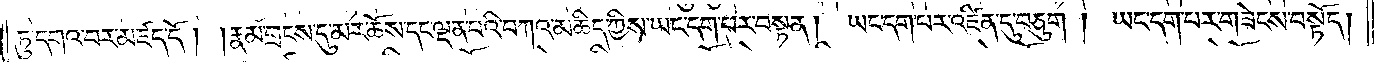ཏུ་དགའ་བར་མཛད་དོ། །རྣམ་གྲངས་དུ་མར་ཆོས་དང་ལྡན་པའི་བཀའ་མཆིད་ཀྱིས་ཡང་དག་པར་བསྟན། ཡང་དག་པར་འཛིན་དུ་བཅུག །ཡང་དག་པར་གཟེངས་བསྟོད།
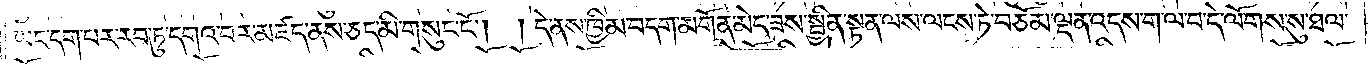ཡང་དག་པར་རབ་ཏུ་དགའ་བར་མཛད་ནས་ཅད་མི་གསུང་ངོ༌། །དེ་ནས་ཁྱིམ་བདག་མགོན་མེད་ཟས་སྦྱིན་སྟན་ལས་ལངས་ཏེ་བཅོམ་ལྡན་འདས་ག་ལ་བ་དེ་ལོགས་སུ་ཐལ་
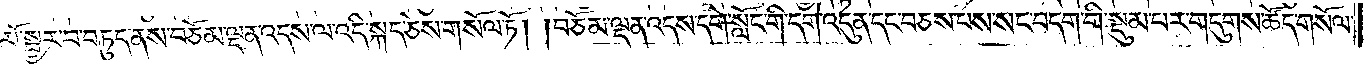མོ་སྦྱར་བ་བཏུད་ནས་བཅོམ་ལྡན་འདས་ལ་འདི་སྐད་ཅེས་གསོལ་ཏོ། །བཅོམ་ལྡན་འདས་དགེ་སློང་གི་དགེ་འདུན་དང་བཅས་པས་སང་བདག་གི་སྡུམ་པར་གདུགས་ཚོད་གསོལ་
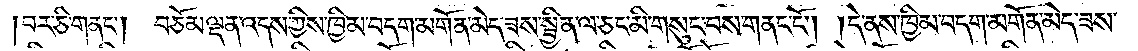བར་ཅི་གནང༌། བཅོམ་ལྡན་འདས་ཀྱིས་ཁྱིམ་བདག་མགོན་མེད་ཟས་སྦྱིན་ལ་ཅང་མི་གསུང་བས་གནང་ངོ༌། །དེ་ནས་ཁྱིམ་བདག་མགོན་མེད་ཟས་
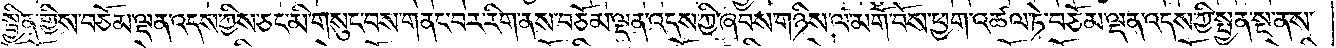སྦྱིན་གྱི་བཅོམ་ལྡན་འདས་ཀྱིས་ཅང་མི་གསུང་བས་གནང་བར་རིག་ནས་བཅོམ་ལྡན་འདས་ཀྱི་ཞབས་གཉིས་ལ་མགོ་བོས་ཕྱག་འཚལ་ཏེ་བཅོམ་ལྡན་འདས་ཀྱི་སྤྱན་སྔ་ནས་
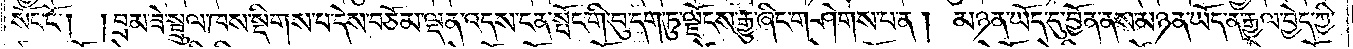སོང་ངོ༌། །བྲམ་ཟེ་སྦྲུལ་ཁས་སྡིགས་པ་དེས་བཅོམ་ལྡན་འདས་ངན་སྤོང་གི་བུ་དག་ཏུ་ལྗོངས་རྒྱུ་ཞིང་གཤེགས་པ་ན། མཉན་ཡོད་དུ་བྱོན་ནས་མཉན་ཡོད་ན་རྒྱལ་བྱེད་ཀྱི་
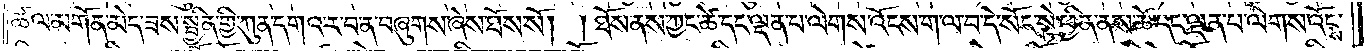ཚལ་མགོན་མེད་ཟས་སྦྱིན་གྱི་ཀུན་དགའ་ར་བ་ན་བཞུགས་ཞེས་ཐོས་སོ། །ཐོས་ནས་ཀྱང་ཆེ་དང་ལྡན་པ་ལེགས་འོངས་ག་ལ་བ་དེ་སོང་སྟེ་ཕྱིན་ནས་ཚེ་དང་ལྡན་པ་ལེགས་འོངས་
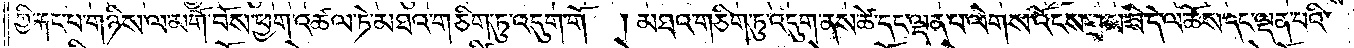ཀྱི་རྐང་པ་གཉིས་ལ་མགོ་བོས་ཕྱག་འཚལ་ཏེ་མཐའ་གཅིག་ཏུ་འདུག་གོ །མཐའ་གཅིག་ཏུ་འདུག་ནས་ཚེ་དང་ལྡན་པ་ལེགས་འོངས་བྲམ་ཟེ་དེ་ལ་ཆོས་དང་ལྡན་པའི་
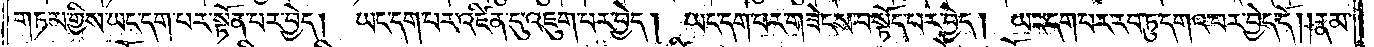གཏམ་གྱིས་ཡང་དག་པར་སྟོན་པར་བྱེད། ཡང་དག་པར་འཛིན་དུ་འཇུག་པར་བྱེད། ཡང་དག་པར་གཟེངས་བསྟོད་པར་བྱེད། ཡང་དག་པར་རབ་ཏུ་དགའ་བར་བྱེད་དོ། །རྣམ་
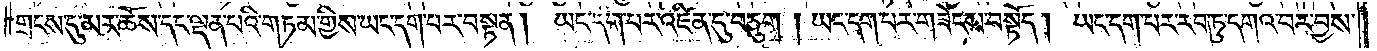གྲངས་དུ་མར་ཆོས་དང་ལྡན་པའི་གཏམ་གྱིས་ཡང་དག་པར་བསྟན། ཡང་དག་པར་འཛིན་དུ་བཅུག །ཡང་དག་པར་གཟེངས་བསྟོད། ཡང་དག་པར་རབ་ཏུ་དགའ་བར་བྱས་
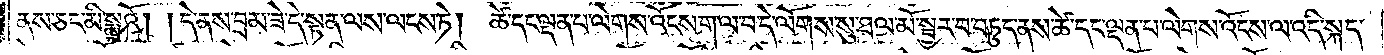ནས་ཅང་མི་སྨྲའོ། །དེ་ནས་བྲམ་ཟེ་དེ་སྟན་ལས་ལངས་ཏེ། ཚེ་དང་ལྡན་པ་ལེགས་འོངས་ག་ལ་བ་དེ་ལོགས་སུ་ཐལ་མོ་སྦྱར་བ་བཏུད་ནས་ཚེ་དང་ལྡན་པ་ལེགས་འོངས་ལ་འདི་སྐད་
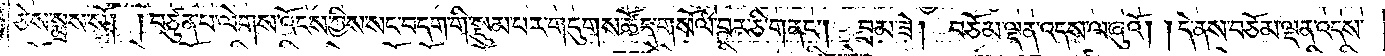ཅེས་སྨྲས་སོ། །བཙུན་པ་ལེགས་འོངས་ཀྱིས་སང་བདག་གི་སྡུམ་པར་གདུགས་ཚོད་གསོལ་བར་ཅི་གནང༌། བྲམ་ཟེ། བཅོམ་ལྡན་འདས་ལ་ཞུའོ། །དེ་ནས་བཅོམ་ལྡན་འདས་
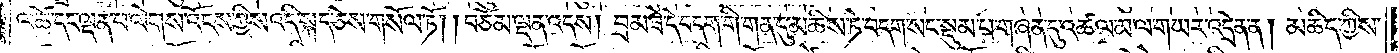ལ་ཚེ་དང་ལྡན་པ་ལེགས་འོངས་ཀྱིས་འདི་སྐད་ཅེས་གསོལ་ཏོ། །བཅོམ་ལྡན་འདས། བྲམ་ཟེ་དེ་བདག་གི་གན་དུ་མཆིས་ཏེ་བདག་སང་སྡུམ་པ་གཞན་དུ་འཚལ་མ་ལ་གཡར་འདྲེན་ན། མཆིད་ཀྱིས་
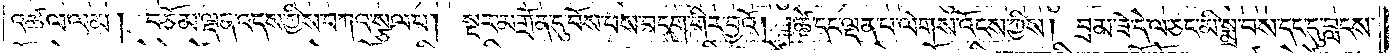འཚལ་ལམ། བཅོམ་ལྡན་འདས་ཀྱིས་བཀའ་སྩལ་པ། སྔར་མགྲོན་དུ་བོས་པས་བདག་གིར་བྱའོ། །ཚེ་དང་ལྡན་པ་ལེགས་འོངས་ཀྱིས། བྲམ་ཟེ་དེ་ལ་ཅང་མི་སྨྲ་བས་དང་དུ་བླངས་
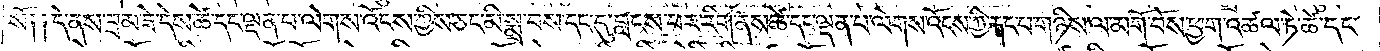སོ༑ ༑དེ་ནས་བྲམ་ཟེ་དེས་ཚེ་དང་ལྡན་པ་ལེགས་འོངས་ཀྱིས་ཅང་མི་སྨྲ་བས་དང་དུ་བླངས་པར་རིག་ནས་ཚེ་དང་ལྡན་པ་ལེགས་འོངས་ཀྱི་རྐང་པ་གཉིས་ལ་མགོ་བོས་ཕྱག་འཚལ་ཏེ་ཚེ་དང་
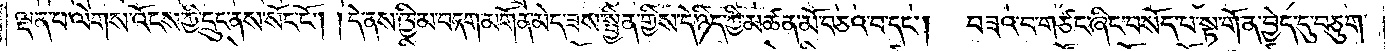ལྡན་པ་ལེགས་འོངས་ཀྱི་དྲུང་ནས་སོང་ངོ༌། །དེ་ནས་ཁྱིམ་བདག་མགོན་མེད་ཟས་སྦྱིན་གྱིས་དེ་ཉིད་ཀྱི་མཚན་མོ་བཅའ་བ་དང༌། བཟའ་བ་གཙང་ཞིང་བསོད་པ་སྟ་གོན་བྱེད་དུ་བཅུག་
